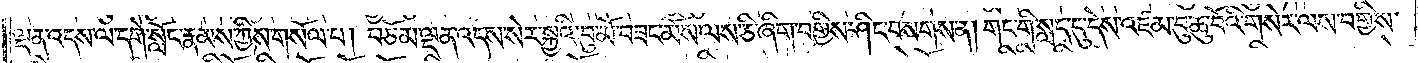ལྡན་འདས་ལ་དགེ་སློང་རྣམས་ཀྱིས་གསོལ་པ། བཅོམ་ལྡན་འདས་སེར་སྐྱའི་བུ་མོ་བཟང་མོས་ལས་ཅི་ཞིག་བགྱིས་ཤིང་བསགས་ན། གང་གི་སླད་དུ་དེས་འཛམ་བུ་ཆུ་བོའི་གསེར་ལས་བགྱིས་
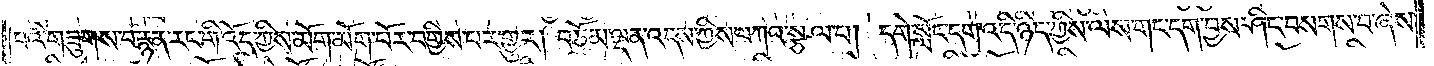པའི་གཟུགས་བརྙན་རང་གི་འོད་ཀྱིས་མོག་མོག་པོར་བགྱིས་པར་གྱུར། བཅོམ་ལྡན་འདས་ཀྱིས་བཀའ་སྩལ་པ། དགེ་སློང་དག་འདི་ཉིད་ཀྱིས་ལས་གང་དག་བྱས་ཤིང་བསགས་པ་ཞེས་
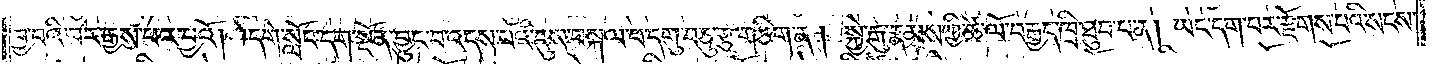བྱ་བའི་བར་རྒྱས་པར་བྱའོ། །དགེ་སློང་དག་སྔོན་བྱུང་བ་འདས་པའི་དུས་བསྐལ་པ་དགུ་བཅུ་རྩ་གཅིག་ན། སྐྱེ་རྒུ་རྣམས་ཀྱི་ཚེ་ལོ་བརྒྱད་ཁྲི་ཐུབ་པ་ན། ཡང་དག་པར་རྫོགས་པའི་སངས་
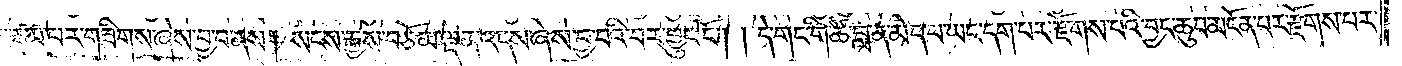རྒྱས་རྣམ་པར་གཟིགས་ཞེས་བྱ་བ་ནས། སངས་རྒྱས་བཅོམ་ལྡན་འདས་ཞེས་བྱ་བའི་བར་བྱུང་ངོ༌། །དེ་གང་གི་ཚེ་བླ་ན་མེད་པ་ཡང་དག་པར་རྫོགས་པའི་བྱང་ཆུབ་མངོན་པར་རྫོགས་པར་
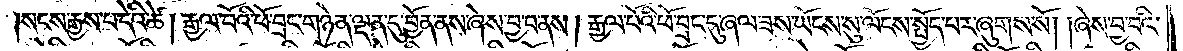སངས་རྒྱས་པ་དེའི་ཚེ། རྒྱལ་པོའི་ཕོ་བྲང་གཉེན་ལྡན་དུ་བྱོན་ནས་ཞེས་བྱ་བ་ནས། རྒྱལ་པོའི་ཕོ་བྲང་དུ་ཞལ་ཟས་ཡོངས་སུ་ལོངས་སྤྱོད་པར་ཞུགས་སོ། །ཞེས་བྱ་བའི་
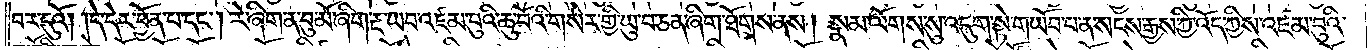བར་དུའོ། །དེ་དེར་བྱོན་པ་དང༌། རེ་ཞིག་ན་བུ་མོ་ཞིག་རྔ་ཡབ་འཛམ་བུའི་ཆུ་བོའི་གསེར་གྱི་ཡུ་བ་ཅན་ཞིག་ཐོགས་ནས། སྣམ་ལོགས་སུ་འདུག་སྟེ་གཡོབ་པ་ན་སངས་རྒྱས་ཀྱི་འོད་ཀྱིས་འཛམ་བུའི་
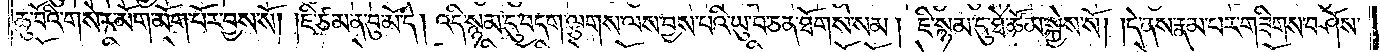ཆུ་བོའི་གསེར་མོག་མོག་པོར་བྱས་སོ། །ཇི་ཙམ་ན་བུ་མོ་དེ། འདི་སྙམ་དུ་བདག་ལྕགས་ལས་བྱས་པའི་ཡུ་བ་ཅན་ཐོགས་སམ། ཇི་སྙམ་དུ་ཐེ་ཚོམ་སྐྱེས་སོ། །དེ་ནས་རྣམ་པར་གཟིགས་བཤོས་
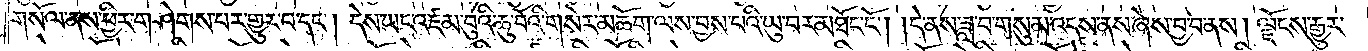གསོལ་ནས་ཕྱིར་གཤེགས་པར་གྱུར་པ་དང༌། དེས་ཡང་འཛམ་བུའི་ཆུ་བོའི་གསེར་མཆོག་ལས་བྱས་པའི་ཡུ་བར་མཐོང་ངོ༌། །དེ་ནས་ཟླ་བ་གསུམ་འདས་ནས་ཞེས་བྱ་བ་ནས། ལྗོངས་རྒྱུར་
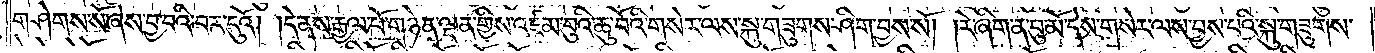གཤེགས་སོ་ཞེས་བྱ་བའི་བར་དུའོ། །དེ་ནས་རྒྱལ་པོ་གཉེན་ལྡན་གྱིས་འཛམ་བུའི་ཆུ་བོའི་གསེར་ལས་སྐུ་གཟུགས་ཤིག་བྱས་སོ། །རེ་ཞིག་ན་བུ་མོ་དེས་གསེར་ལས་བྱས་པའི་སྐུ་གཟུགས་
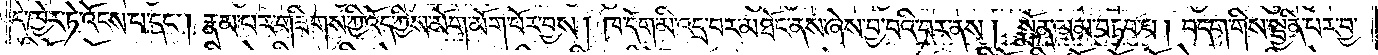དེ་ཁྱེར་ཏེ་འོངས་པ་དང༌། རྣམ་པར་གཟིགས་ཀྱི་འོད་ཀྱིས་མོག་མོག་པོར་བྱས། ཁ་དོག་མི་འདྲ་བར་མཐོང་ནས་ཞེས་བྱ་བའི་བར་ནས། སྨོན་ལམ་བཏབ་པ། བདག་གིས་སྦྱིན་པར་བྱ་
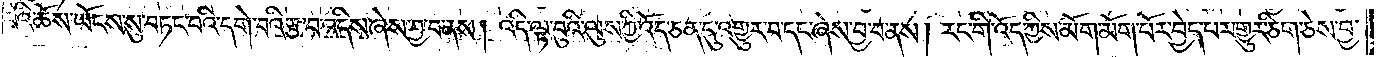བའི་ཆོས་ཡོངས་སུ་བཏང་བའི་དགེ་བའི་རྩ་བ་འདིས་ཞེས་བྱ་བ་ནས། འདི་ལྟ་བུའི་ལུས་ཀྱི་འོད་ཅན་དུ་འགྱུར་བ་དང་ཞེས་བྱ་བ་ནས། རང་གི་འོད་ཀྱིས་མོག་མོག་པོར་བྱེད་པར་གྱུར་ཅིག་ཅེས་བྱ་
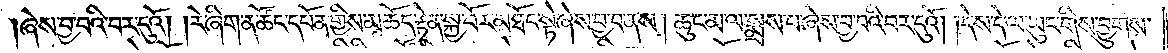ཞེས་བྱ་བའི་བར་དུའོ། །རེ་ཞིག་ན་ཚོང་དཔོན་གྱིས་མཆོད་རྟེན་སྐྱ་བོར་མཐོང་སྟེ་ཞེས་བྱ་བ་ནས། ཆུང་མ་ལ་སྨྲས་པ་ཞེས་བྱ་བའི་བར་དུའོ། །དེས་དེ་ལ་ཡུང་གིས་བྱུགས་
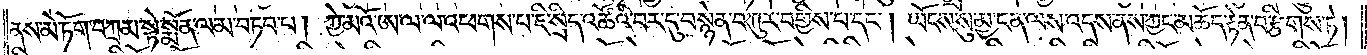ནས་མེ་ཏོག་བཀྲམ་སྟེ་སྨོན་ལམ་བཏབ་པ། ཀྱེ་མའོ་ཨ་ལ་ལ་འཕགས་པ་ཇི་སྲིད་འཚོའི་བར་དུ་བསྙེན་བཀུར་བགྱིས་པ་དང༌། ཡོངས་སུ་མྱ་ངན་ལས་འདས་ནས་ཀྱང་མཆོད་རྟེན་བརྩིགས་ཏེ།
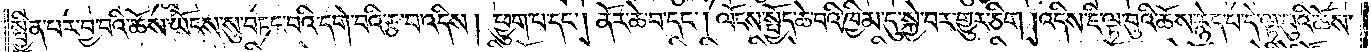སྦྱིན་པར་བྱ་བའི་ཆོས་ཡོངས་སུ་བཏང་བའི་དགེ་བའི་རྩ་བ་འདིས། ཕྱུག་པ་དང༌། ནོར་ཆེ་བ་དང༌། ལོངས་སྤྱོད་ཆེ་བའི་ཁྱིམ་དུ་སྐྱེ་བར་གྱུར་ཅིག །འདིས་ཇི་ལྟ་བུའི་ཆོས་རྙེད་པ་དེ་ལྟ་བུའི་ཆོས་
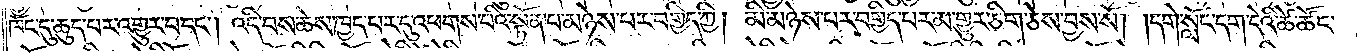ཁོང་དུ་ཆུད་པར་འགྱུར་བ་དང༌། འདི་བས་ཆེས་ཁྱད་པར་དུ་འཕགས་པའི་སྟོན་པ་མཉེས་པར་བགྱིད་ཀྱི། མི་མཉེས་པར་བགྱིད་པར་མ་གྱུར་ཅིག་ཅེས་བྱས་སོ། །དགེ་སློང་དག་དེའི་ཚེ་ཚོང་
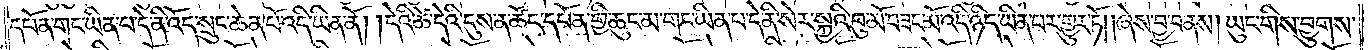དཔོན་གང་ཡིན་པ་དེ་ནི་འོད་སྲུང་ཆེན་པོ་འདི་ཡིན་ནོ། །དེའི་ཚེ་དེའི་དུས་ན་ཚོང་དཔོན་གྱི་ཆུང་མ་གང་ཡིན་པ་དེ་ནི་སེར་སྐྱའི་བུ་མོ་བཟང་མོ་འདི་ཉིད་ཡིན་པར་གྱུར་ཏོ། །ཞེས་བྱ་བ་ནས། ཡུང་གིས་བྱུགས་
